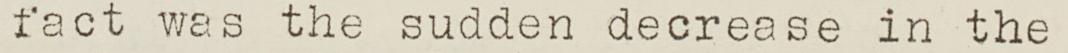fact was the sudden decrease in the
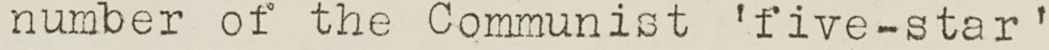number of the Communist 'five-star'
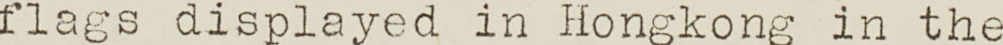flags displayed in Hongkong in the
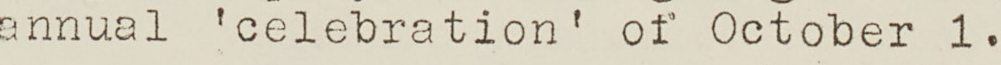annual 'celebration' of October 1.
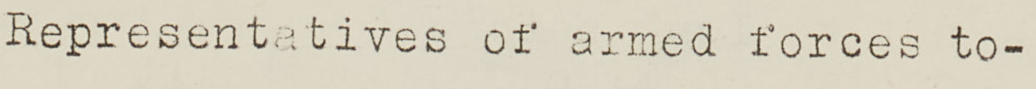Representatives of armed forces to-
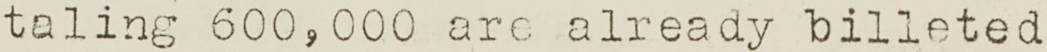taling 600,000 are already billeted
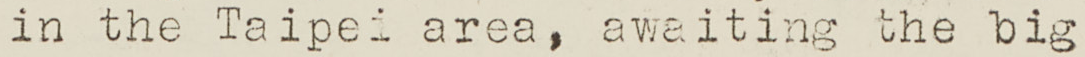in the Taipe area, awaiting the big
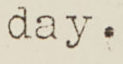day.
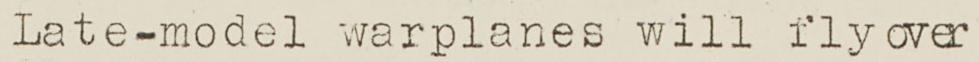Late model warplanes will flover
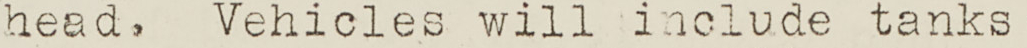head. Vehicles will include tanks
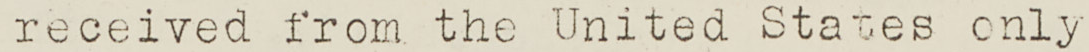received from the United States only
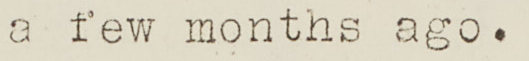a few months ago.
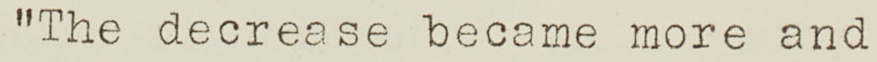"The decrease became more and
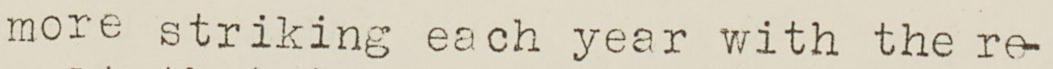more striking each year with the re-
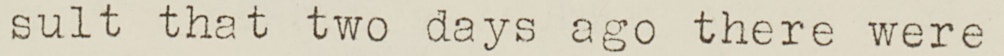sult that two days ago there were
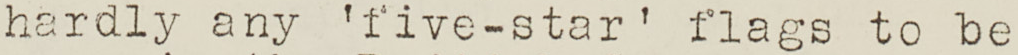hardly any five star flags to be
